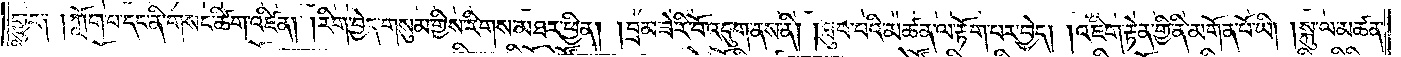གྱུར། །ཀློག་པ་དང་ནི་གསང་ཚིག་འཛིན། །རིག་བྱེད་གསུམ་གྱིས་རིགས་མཐར་ཕྱིན། །བྲམ་ཟེ་རི་བོ་འདུག་ནས་ནི། །ཐུབ་པའི་མཚན་ལ་རྟོག་པར་བྱེད། །འཇིག་རྟེན་གྱི་ནི་མགོན་པོ་ཡི། །སྐུ་ལ་མཚན་
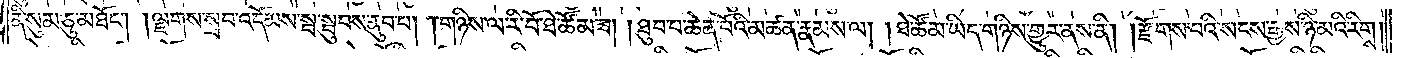ནི་སུམ་ཅུ་མཐོང༌། །ལྗགས་སྲབ་འདོམས་སྦ་སྦུབས་ནུབ་པ། །གཉིས་ལ་རི་བོ་ཐེ་ཚོམ་ཟ། །ཐུབ་པ་ཆེན་པོའི་མཚན་རྣམས་ལ། །ཐེ་ཚོམ་ཡིད་གཉིས་གྱུར་ནས་ནི། །རྫོགས་པའི་སངས་རྒྱས་ཉི་མའི་རིགས།
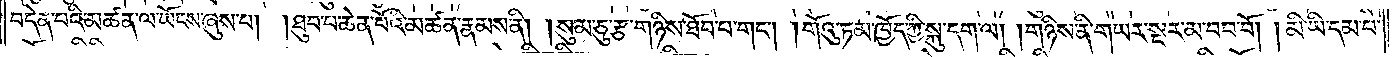བདེན་པའི་མཚན་ལ་ཡོངས་ཞུས་པ། །ཐུབ་པ་ཆེན་པོའི་མཚན་རྣམས་ནི། །སུམ་ཅུ་རྩ་གཉིས་ཐོབ་པ་གང༌། །གོའུ་ཏམ་ཁྱོད་ཀྱི་སྐུ་དག་ལ། །གཉིས་ནི་གཡར་སྔར་མ་བབ་བོ། །མི་ཡི་དམ་པ་
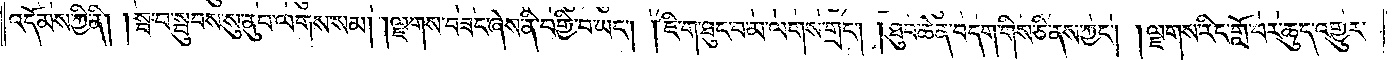འདོམས་ཀྱི་ནི། །སྦ་བ་སྦུབས་སུ་ནུབ་ལགས་སམ། །ལྗགས་བཟང་ཞེས་ནི་བགྱི་བ་ཡང༌། །ཇི་ག་ཐུང་བ་མ་ལགས་གྲང༌། །ཐུབ་ཆེན་བདག་གིས་ཅི་ནས་ཀྱང༌། །ལྗགས་རིང་གློ་བར་ཆུད་འགྱུར་
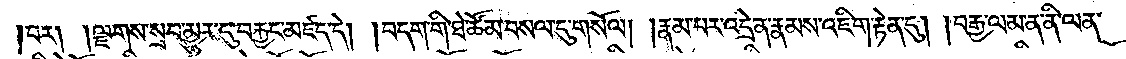བར། །ལྗགས་སྲབ་མྱུར་དུ་བརྐྱང་མཛད་དེ། །བདག་གི་ཐེ་ཚོམ་བསལ་དུ་གསོལ། །རྣམ་པར་འདྲེན་རྣམས་འཇིག་རྟེན་དུ། །བརྒྱ་ལམ་ན་ནི་ལན་
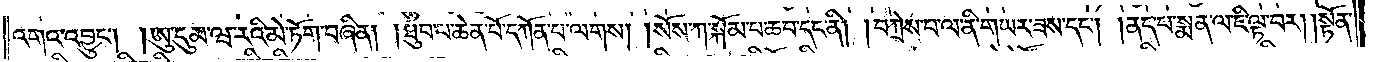འགའ་འབྱུང༌། །ཨུ་དུམ་ཝ་རའི་མེ་ཏོག་བཞིན། །ཐུབ་པ་ཆེན་པོ་དཀོན་པ་ལགས། །སོས་ཀ་སྐོམ་པ་ཆབ་དང་ནི། །བཀྲེས་པ་ལ་ནི་གཡར་ཟས་དང༌། །ནད་པ་སྨན་ལ་ཇི་ལྟ་བར། །སྟོན་
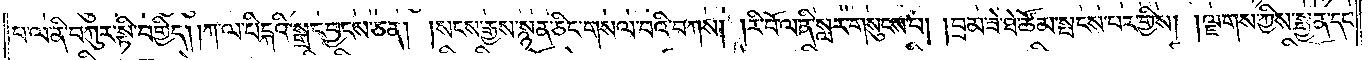པ་ལ་ནི་བཀུར་སྟི་བགྱིད། །ཀ་ལ་པིངྐའི་སྒྲ་དབྱངས་ཅན། །སངས་རྒྱས་སྙན་ཅིང་གསལ་བའི་བཀས། །རི་བོ་ལ་ནི་སླར་གསུངས་པ། །བྲམ་ཟེ་ཐེ་ཚོམ་སྤངས་བར་གྱིས། །ལྗགས་ཀྱིས་སྤྱན་དང་
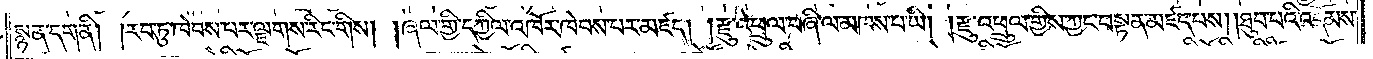སྙན་དག་ནི། །རབ་ཏུ་ཁེབས་པར་ལྗགས་རིང་གིས། །ཞལ་གྱི་དཀྱིལ་འཁོར་ཁེབས་པར་མཛད། །རྫུ་འཕྲུལ་བཞི་ལ་མཁས་པ་ཡི། །རྫུ་འཕྲུལ་གྱིས་ཀྱང་བསྟན་མཛད་པས། །ཐུབ་པའི་འདོམས་
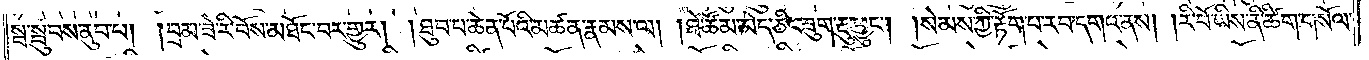སྦ་སྦུབས་ནུབ་པ། །བྲམ་ཟེ་རི་བོས་མཐོང་བར་གྱུར། །ཐུབ་པ་ཆེན་པོའི་མཚན་རྣམས་ལ། །ཐེ་ཚོམ་མེད་ཅིང་ཟུག་རྔུ་ཕྱུང༌། །སེམས་ཀྱི་རྟོག་པ་རབ་དགའ་ནས། །རི་བོ་ཡིས་ནི་ཚིག་གསོལ་
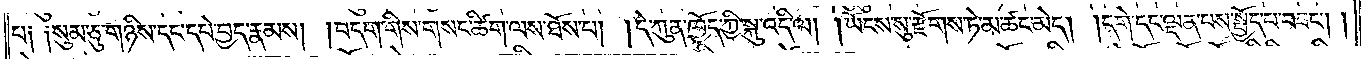པ། །སུམ་ཅུ་གཉིས་དང་དཔེ་བྱད་རྣམས། །བདག་གིས་གསང་ཚིག་ལས་ཐོས་པ། །དེ་ཀུན་ཁྱོད་ཀྱི་སྐུ་འདི་ལ། །ཡོངས་སུ་རྫོགས་ཏེ་མ་ཚང་མེད། །དགེ་དང་ལྡན་པས་སྤྱོད་པ་བཟང༌། །
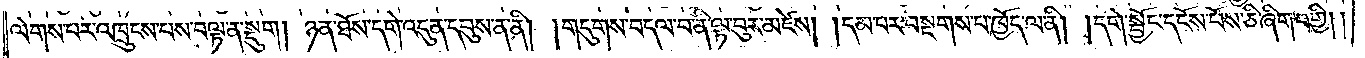ལེགས་པར་འཁྲུངས་པས་བལྟ་ན་སྡུག །ཉན་ཐོས་དགེ་འདུན་དབུས་ན་ནི། །གདུགས་བ་དལ་བ་ནི་ལྟ་བུར་མཛེས། །དམ་པར་བསྔགས་པ་ཁྱོད་ལ་ནི། །དགེ་སྦྱོང་དངོས་པོས་ཅི་ཞིག་བགྱི། །
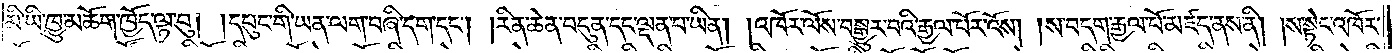མ་ཡི་ཁྱུ་མཆོག་ཁྱོད་ལྟ་བུ། །དཔུང་གི་ཡན་ལག་བཞི་དག་དང༌། །རིན་ཆེན་བདུན་དང་ལྡན་པ་ཡིན། །འཁོར་ལོས་བསྒྱུར་བའི་རྒྱལ་པོར་འོས། །ས་བདག་རྒྱལ་པོ་མཛད་ནས་ནི། །ས་སྟེང་འཁོར་
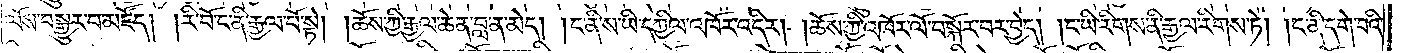ལོས་བསྒྱུར་བ་མཛོད། །རི་བོ་ང་ནི་རྒྱལ་པོ་སྟེ། །ཆོས་ཀྱི་རྒྱལ་ཆེན་བླ་ན་མེད། །ང་ནི་ས་ཡི་དཀྱིལ་འཁོར་འདིར། །ཆོས་ཀྱི་འཁོར་ལོ་བསྐོར་བར་བྱེད། །ང་ཡི་རིགས་ནི་རྒྱལ་རིགས་ཏེ། །ང་ནི་དགེ་བའི་
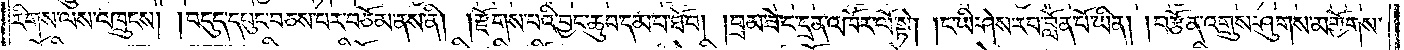རིགས་ལས་འཁྲུངས། །བདུད་དཔུང་བཅས་པར་བཅོམ་ནས་ནི། །རྫོགས་པའི་བྱང་ཆུབ་དམ་པ་ཐོབ། །བྲམ་ཟེ་ང་དྲན་འཁོར་ལོ་སྟེ། །ང་ཡི་ཤེས་རབ་བློན་པོ་ཡིན། །བརྩོན་འགྲུས་ཤུགས་མགྱོགས་
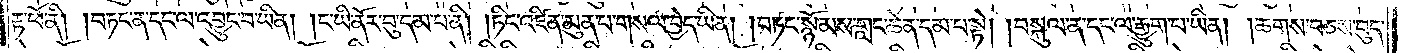རྟ་ཕོ་ནི། །བཏང་ན་དང་ལ་འབྱུང་བ་ཡིན། །ང་ཡི་ནོར་བུ་དམ་པ་ནི། །ཏིང་འཛིན་མུན་པ་གསལ་བྱེད་ཡིན། །བཏང་སྙོམས་གླང་ཆེན་དམ་པ་སྟེ། །བསྐུལ་ན་དང་ལ་རྒྱུག་པ་ཡིན། །ཆགས་བཅས་བུད་
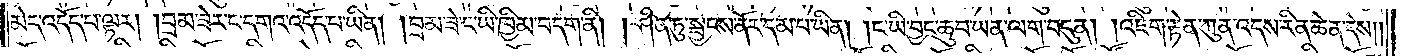མེད་འདོད་པ་ལྟར། །བྲམ་ཟེར་ང་དགའ་འདོད་པ་ཡིན། །བྲམ་ཟེ་ང་ཡི་ཁྱིམ་བདག་ནི། །ཤིན་ཏུ་སྦྱངས་ནོར་དམ་པ་ཡིན། །ང་ཡི་བྱང་ཆུབ་ཡན་ལག་བདུན། །འཇིག་རྟེན་ཀུན་འདས་རིན་ཆེན་དེས། །
